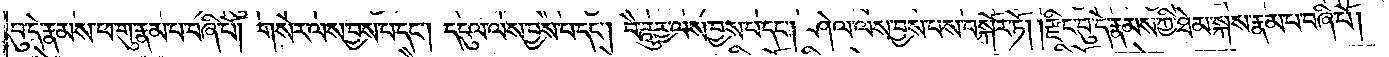བུ་དེ་རྣམས་ཕ་གུ་རྣམ་པ་བཞི་པོ། གསེར་ལས་བྱས་པ་དང༌། དངུལ་ལས་བྱས་པ་དང༌། བཻ་ཌཱུརྱ་ལས་བྱས་པ་དང༌། ཤེལ་ལས་བྱས་པས་བསྐོར་ཏོ། །རྫིང་བུ་དེ་རྣམས་ཀྱི་ཐེམ་སྐས་རྣམ་པ་བཞི་པོ།
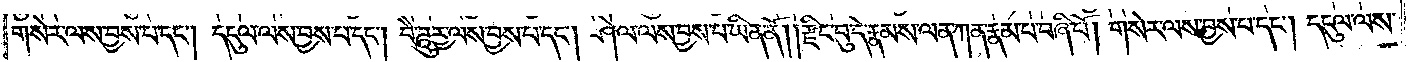གསེར་ལས་བྱས་པ་དང༌། དངུལ་ལས་བྱས་པ་དང༌། བཻ་ཌཱུརྱ་ལས་བྱས་པ་དང༌། ཤེལ་ལས་བྱས་པ་ཡིན་ནོ། །རྫིང་བུ་དེ་རྣམས་ལན་ཀན་རྣམ་པ་བཞི་པོ། གསེར་ལས་བྱས་པ་དང༌། དངུལ་ལས་
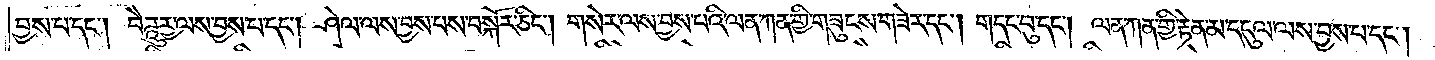བྱས་པ་དང༌། བཻཌཱུརྱ་ལས་བྱས་པ་དང༌། ཤེལ་ལས་བྱས་པས་བསྐོར་ཅིང༌། གསེར་ལས་བྱས་པའི་ལན་ཀན་གྱི་གཟུངས་གཟེར་དང༌། གདང་བུ་དང༌། ལན་ཀན་གྱི་རྟེན་མ་དངུལ་ལས་བྱས་པ་དང༌།
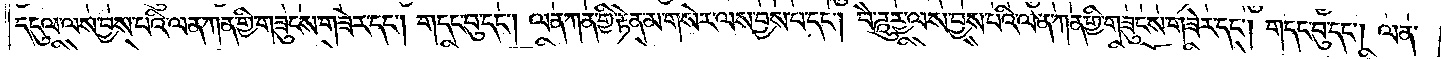དངུལ་ལས་བྱས་པའི་ལན་ཀན་གྱི་གཟུངས་གཟེར་དང༌། གདང་བུ་དང༌། ལན་ཀན་གྱི་རྟེན་མ་གསེར་ལས་བྱས་པ་དང༌། བཻ་ཌཱུརྱ་ལས་བྱས་པའི་ལན་ཀན་གྱི་གཟུངས་གཟེར་དང༌། གདང་བུ་དང༌། ལན་
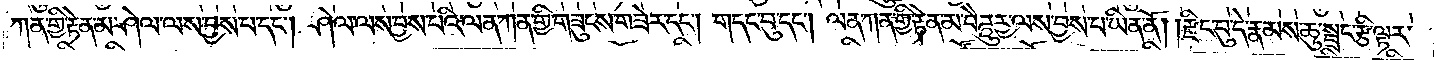ཀན་གྱི་རྟེན་མ་ཤེལ་ལས་བྱས་པ་དང༌། ཤེལ་ལས་བྱས་པའི་ལན་ཀན་གྱི་གཟུངས་གཟེར་དང༌། གདང་བུ་དང༌། ལན་ཀན་གྱི་རྟེན་མ་བཻཌཱུརྱ་ལས་བྱས་པ་ཡིན་ནོ། །རྫིང་བུ་དེ་རྣམས་ཆུ་སྦྲང་རྩི་ལྟར་
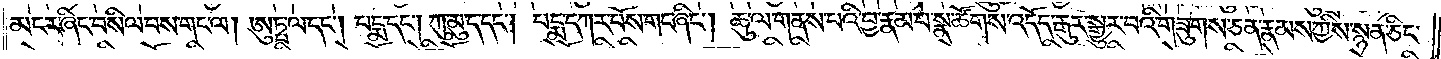མངར་ཞིང་བསིལ་བས་གང་ལ། ཨུཏྤ་ལ་དང༌། པདྨ་དང༌། ཀུ་མུ་ད་དང༌། པདྨ་དཀར་པོས་གང་ཞིང༌། ཆུ་ལ་གནས་པའི་བྱ་རྣམ་པ་སྣ་ཚོགས་འདོད་རྒུར་སྒྱུར་བའི་གཟུགས་ཅན་རྣམས་ཀྱིས་སྙན་ཅིང་
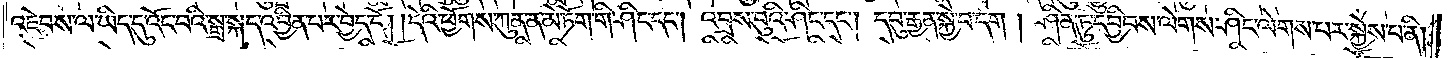འཇེབས་ལ་ཡིད་དུ་འོང་བའི་སྒྲ་སྐད་འབྱིན་པར་བྱེད་དོ། །དེའི་ཕྱོགས་ཀུན་ན་མེ་ཏོག་གི་ཤིང་དང༌། འབྲས་བུའི་ཤིང་དང༌། དབུ་རྒྱན་སྐྱེ་བ་དག །ཤིན་ཏུ་དབྱིབས་ལེགས་ཤིང་ལེགས་པར་སྐྱེས་པ་ནི།
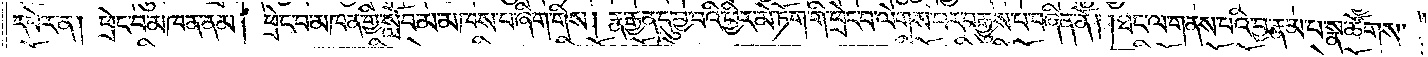དཔེར་ན། ཕྲེང་བ་མཁན་ནམ། ཕྲེང་བ་མཁན་གྱི་སློབ་མ་མཁས་པ་ཞིག་གིས། རྣ་རྒྱན་དུ་བྱ་བའི་ཕྱིར་མེ་ཏོག་གི་ཕྲེང་བ་ལེགས་པར་བགྱུས་པ་བཞིན་ནོ། །ཐང་ལ་གནས་པའི་བྱ་རྣམ་པ་སྣ་ཚོགས་
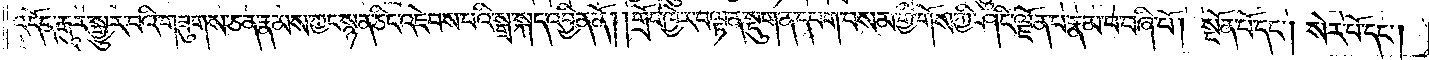འདོད་རྒུར་སྒྱུར་བའི་གཟུགས་ཅན་རྣམས་ཀྱང་སྙན་ཅིང་འཇེབས་པའི་སྒྲ་སྐད་འབྱིན་ནོ། །གྲོང་ཁྱེར་བལྟ་ན་སྡུག་ན་དཔག་བསམ་གྱི་གོས་ཀྱི་ཤིང་ལྗོན་པ་རྣམ་པ་བཞི་པོ། སྔོན་པོ་དང༌། སེར་པོ་དང༌།
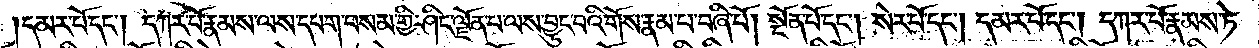།དམར་པོ་དང༌། དཀར་པོ་རྣམས་ལས་དཔག་བསམ་གྱི་ཤིང་ལྗོན་པ་ལས་བྱུང་བའི་གོས་རྣམ་པ་བཞི་པོ། སྔོན་པོ་དང༌། སེར་པོ་དང༌། དམར་པོ་དང༌། དཀར་པོ་རྣམས་ཏེ་
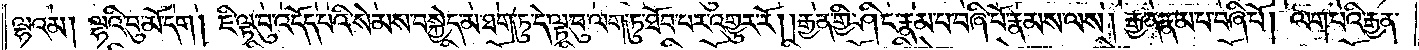ལྷའམ། ལྷའི་བུ་མོ་དག། ཇི་ལྟ་བུ་འདོད་པའི་སེམས་བསྐྱེད་མ་ཐག་ཏུ་དེ་ལྟ་བུ་ལག་ཏུ་ཐོབ་པར་འགྱུར་རོ། །རྒྱན་གྱི་ཤིང་རྣམ་པ་བཞི་པོ་རྣམས་ལས། རྒྱན་རྣམ་པ་བཞི་པོ། ལག་པའི་རྒྱན་
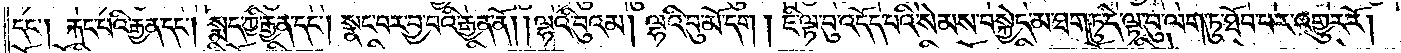དང༌། རྐང་པའི་རྒྱན་དང༌། སྨད་ཀྱི་རྒྱན་དང༌། སྣང་བར་བྱ་བའི་རྒྱན་ནོ། །ལྷའི་བུའམ། ལྷའི་བུ་མོ་དག །ཇི་ལྟ་བུ་འདོད་པའི་སེམས་བསྐྱེད་མ་ཐག་ཏུ་དེ་ལྟ་བུ་ལག་ཏུ་ཐོབ་པར་འགྱུར་རོ།
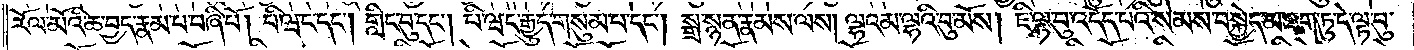རོལ་མོའི་ཆ་བྱད་རྣམ་པ་བཞི་པོ། པི་ཝང་དང༌། གླིང་བུ་དང༌། པི་ཝང་རྒྱུད་གསུམ་པ་དང༌། སྒྲ་སྙམ་རྣམས་ལས། ལྷའམ་ལྷའི་བུ་མོས། ཇི་ལྟ་བུ་འདོད་པའི་སེམས་བསྐྱེད་མ་ཐག་ཏུ་དེ་ལྟ་བུ་
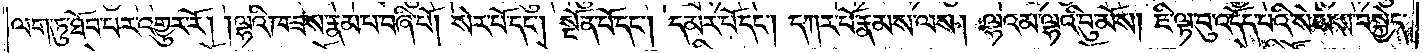ལག་ཏུ་ཐོབ་པར་འགྱུར་རོ། །ལྷའི་ཁ་ཟས་རྣམ་པ་བཞི་པོ། སེར་པོ་དང༌། སྔོན་པོ་དང༌། དམར་པོ་དང༌། དཀར་པོ་རྣམས་ལས། ལྷའམ་ལྷའི་བུ་མོས། ཇི་ལྟ་བུ་འདོད་པའི་སེམས་བསྐྱེད་
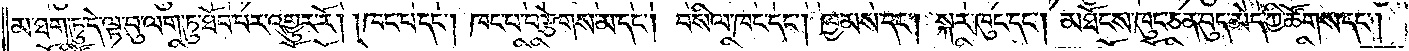མ་ཐག་ཏུ་དེ་ལྟ་བུ་ལག་ཏུ་ཐོབ་པར་འགྱུར་རོ། །ཁང་པ་དང༌། ཁང་པ་བརྩེགས་མ་དང༌། བསིལ་ཁང་དང༌། ཁྱམས་དང༌། སྐར་ཁུང་དང༌། མཐོངས་ཁུང་ཅན་བུད་མེད་ཀྱི་ཚོགས་དང༌།
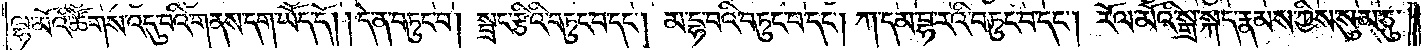ལྷ་མོའི་ཚོགས་འདུ་བའི་གནས་དག་ཡོད་དོ། །དེ་ན་བཏུང་བ། སྦྲང་རྩིའི་བཏུང་བ་དང༌། མ་དྷ་བའི་བཏུང་བ་དང༌། ཀ་དམ་བྷ་རའི་བཏུང་བ་དང༌། རོལ་མོའི་སྒྲ་སྐད་རྣམས་ཀྱིས་སུམ་ཅུ་
